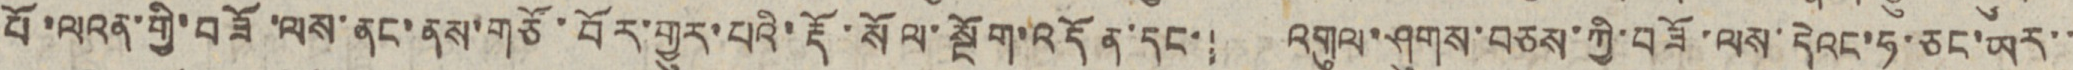པོ་ལའན་གྱི་བཟོ་ལས་ནང་ནས་གཙོ་བོར་གྱུར་པའི་རྡོ་སོལ་སྔོག་འདོན་དང་། འགུལ་ཤུགས་བཅས་ཀྱི་བཟོ་ལས་དེའང་ཧ་ཅང་ཡར་་
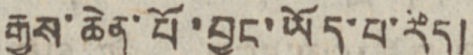རྒྱས་ཆེན་པོ་བྱུང་ཡོད་པ་རེད།
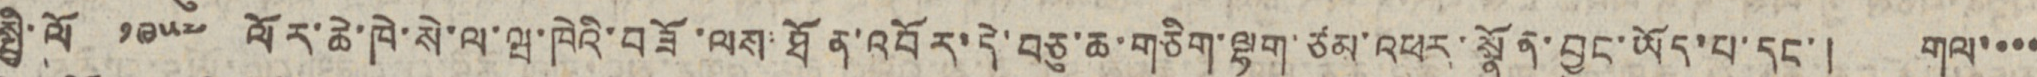སྤྱི་ལོ ༡༩༥༧ ལོར་ཆེ་ཁེ་སེ་ལ་ཝ་ཁེའི་བཟོ་ལས་ཐོན་འབོར་དེ་བཅུ་ཆ་གཅིག་ལྷག་ཙམ་འཕར་སྣོན་བྱུང་ཡོད་པ་དང་། གལ་་་་
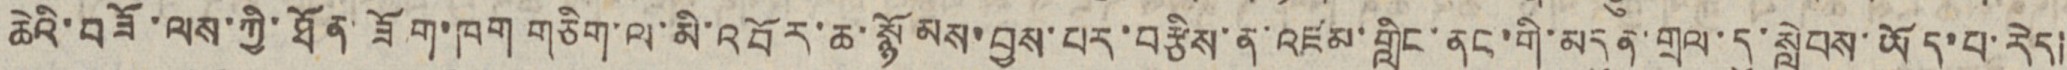ཆེའི་བཟོ་ལས་ཀྱི་ཐོན་ཟོག་ཁག གཅིག་ལ་མི་འབོར་ཆ་སྙོམས་བྱས་པར་བརྩིས་ན་འཛམ་གླིང་ནང་གི་མདུན་གྲལ་དུ་སླེབས་ཡོད་པ་རེད།
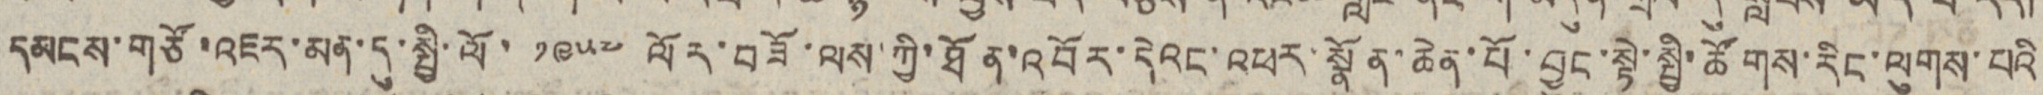དམངས་གཙོ་འཇར་མན་དུ་སྤྱི་ལོ་ ༡༩༥༧ ལོར་བཟོ་ལས་ཀྱི་ཐོན་འབོར་དེའང་འཕར་སྣོན་ཆེན་པོ་བྱུང་སྟེ་སྤྱི་ཚོགས་རིང་ལུགས་པའི་
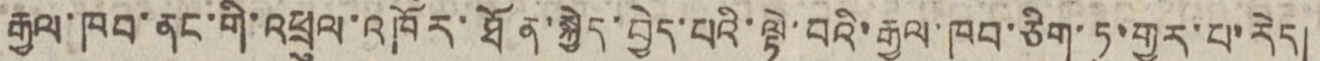རྒྱལ་ཁབ་ནང་གི་འཕྲུལ་འཁོར་ཐོན་སྐྱེད་བྱེད་པའི་ལྟེ་བའི་རྒྱལ་ཁབ་ཅིག་ཏུ་གྱུར་པ་རེད།
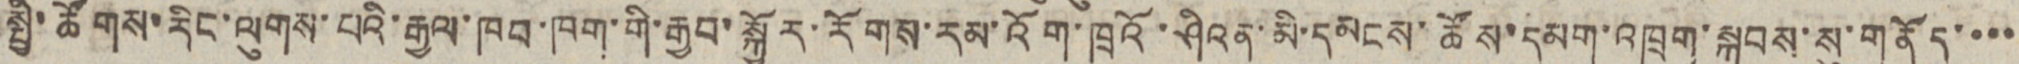སྤྱི་ཚོགས་རིང་ལུགས་པའི་རྒྱལ་ཁབ་ཁག་གི་རྒྱབ་སྐྱོར་རོགས་རམ་འོག་ཁྲའོ་ཤིའན་མི་དམངས་ཚོས་དམག་འཁྲུག་སྐབས་སུ་གནོད་་་་
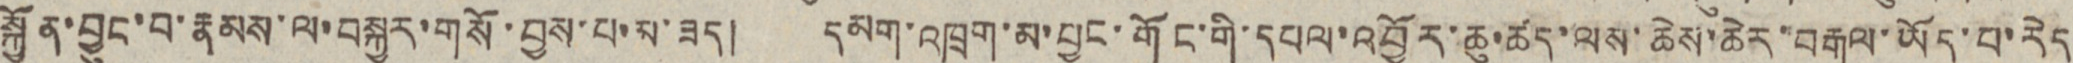སྐྱོན་བྱུང་བ་རྣམས་ལ་བསྐྱར་གསོ་བྱས་པ་མ་ཟད། དམག་འཁྲུག་མ་བྱུང་གོང་གི་དཔལ་འབྱོར་ཆུ་ཚད་ལས་ཆེས་ཆེར་བརྒལ་ཡོད་པ་རེད
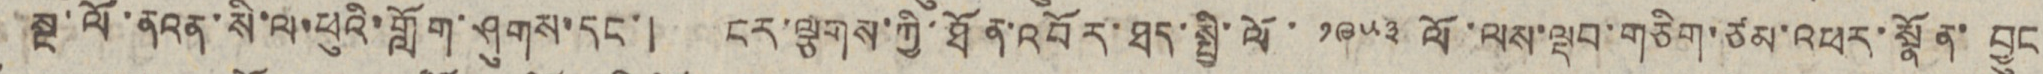སྔ་ལོ་ནའན་སི་ལ་ཕུའི་གློག་ཤུགས་དང་། ངར་ལྕགས་ཀྱི་ཐོན་འབོར་ཐད་སྤྱི་ལྤ་ ༡༩༥༣ ལོ་ལས་ལྡབ་གཅིག་ཙམ་འཕར་སྣོན་བྱུང
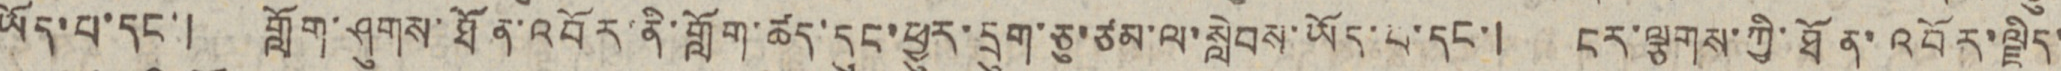ཡོད་པ་དང་། གློག་ཤུགས་ཐོན་འབོར་ནི་གློག་ཚད་དུང་ཕྱུར་དྲུག་ཅུ་ཙམ་ལ་སླེབས་ཡོད་པ་དང་། ངར་ལྕགས་ཀྱི་ཐོན་འབོར་ལྗིད་
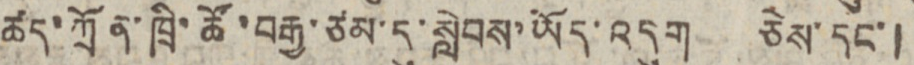ཚད་ཀྲོན་ཁྲི་ཚོ་བརྒྱ་ཙམ་དུ་སླེབས་ཡོད་འདུག ཅེས་དང་།
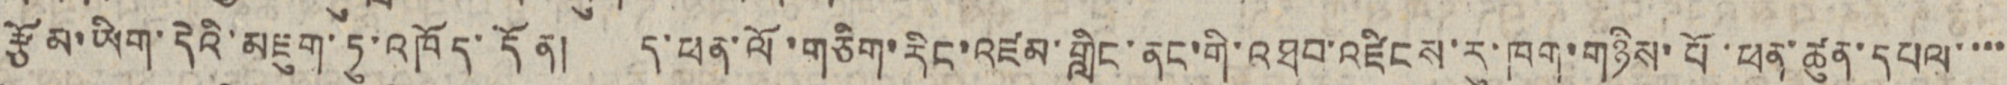རྩོམ་ཡིག་དེའི་མཇུག་ཏུ་འཁོད་དོན། ད་ཕན་ལོ་གཅིག་རིང་འཛམ་གླིང་ནང་གི་འཐབ་འཛིངས་རུ་ཁག་གཉིས་པོ་ཕན་ཚུན་དཔལ་་་་
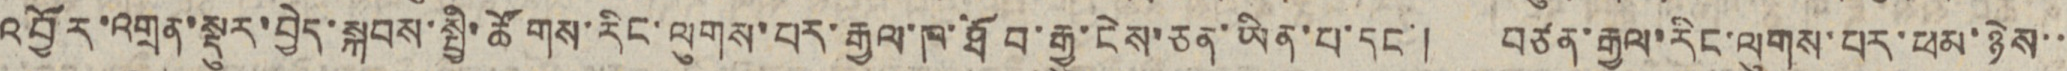འབྱོར་འགྲན་སྡུར་བྱེད་སྐབས་སྤྱི་ཚོགས་རིང་ལུགས་པར་རྒྱལ་ཁ་ཐོབ་རྒྱུ་ངེས་ཅན་ཡིན་པ་དང་། བཙན་རྒྱལ་རིང་ལུགས་པར་ཕམ་ཉེས་་
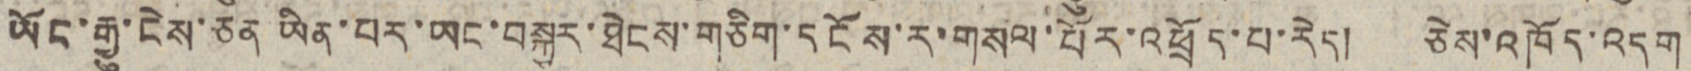ཡོང་རྒྱུ་ངེས་ཅན ཡིན་པར་ཡང་བསྐྱར་ཐེངས་གཅིག་དངོས་ར་གསལ་པོར་འཕྲོད་པ་རེད། ཅེས་འཁོད་འདུག
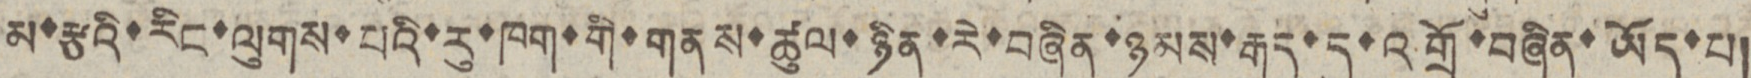མ་རྩའི་རིང་ལུགས་པའི་རུ་ཁག་གི་གནས་ཚུལ་ཉིན་རེ་བཞིན་ཉམས་རྒུད་དུ་འགྲོ་བཞིན་ཡོད་པ།
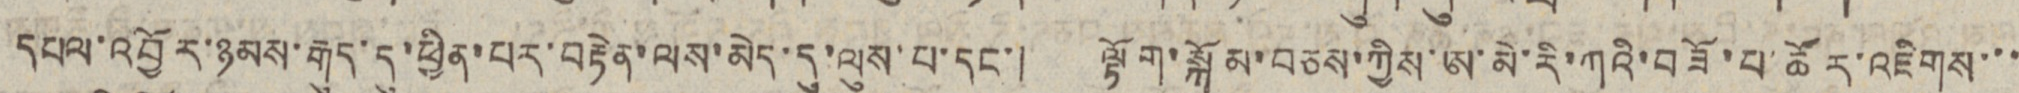དཔལ་འབྱོར་ཉམས་རྒུད་དུ་ཕྱིན་པར་བརྟེན་ལས་མེད་དུ་ལུས་པ་དང་། ལྟོག་སྐོམ་བཅས་ཀྱིས་ཨ་མེ་རི་ཀའི་བཟོ་པ་ཚོར་འཇིགས་་་
